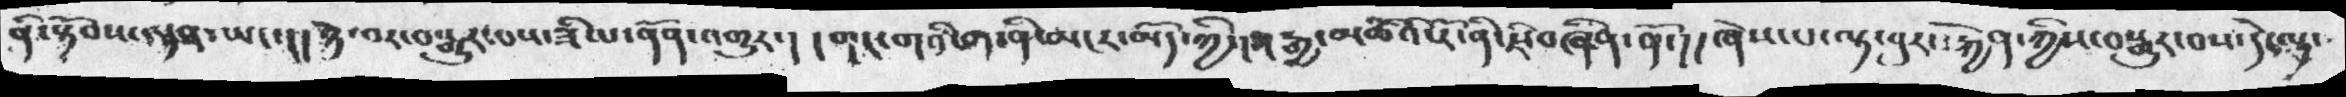ནི་སྟོབས་སྟན་ཡང་།། ཉེ་བར་བསྒྱུར་པས་ཟི་པ་ནོན་འགྱུར་།  ། གང་གཅིག་ནི་མངར་མོད་ཀྱི་། རྒྱ་མཚོའི་རོ་ནི་རྗེ་བཞིན་ནོ་།།  ཞེས་པ་ལྟ་བུར་རྐྱེན་ཀྱིས་བསྒྱུར་བས་དེ་ལྟ་
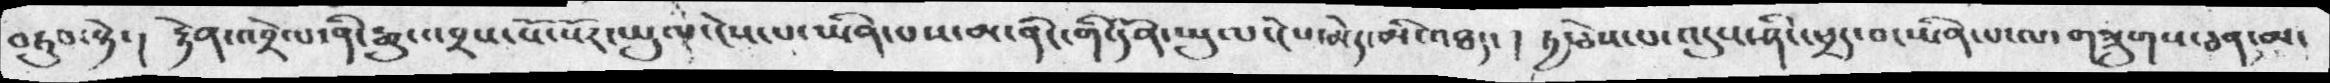བརུབ་སྟེ་། རྟེན་྄འབྲེལ་ནི་རྒྱུ་འབྲས་སོ་སོར་ཡུལ་ངེས་པ་ཡིན་པས་མ་ནིང་གི་དོན་ཡུལ་ངེས་མེད་མི་འཐད་། ཏྱ་ཅེས་པ་འདུས་ཤིང་ཕྲད་པ་ཡིན་པ་ལ་གཟུགས་ཅན་མ་
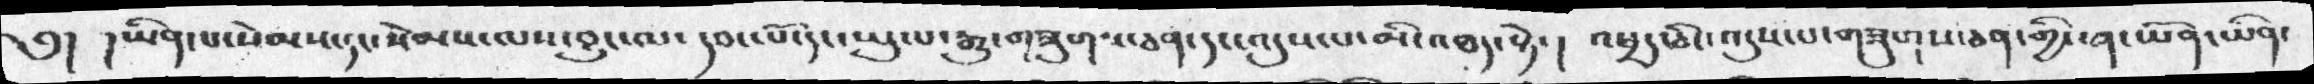༄༅། །ཡིན་པ་སེམས་དང་སེམས་ལས་བྱུང་ལ་དབང་པོ་དང་ཡུལ་རྒྱུ་གཟུགས་ཅན་དང་འདུས་པ་མི་འཐད་སྟེ་། འཕྲད་ཅིང་འདུས་པ་གཟུགས་ཅན་གྱི་ན་ཡོན་ཡིན་
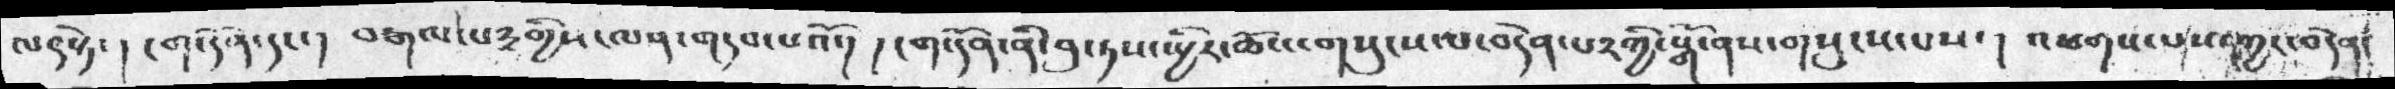ལན་སྟེ་། ངག་དོན་དང་། བརྒལ་པ༣་གྱིས་ལན་གདབ་པའོ་། །ངག་དོན་ནི་བུ་ཏས་སྤྱིར་ཆོས་གསུངས་པ་བདེན་པར་གྱི་སྒོ་ནས་གསུངས་པས་། འཕགས་པས་ཀྱང་བདེན་
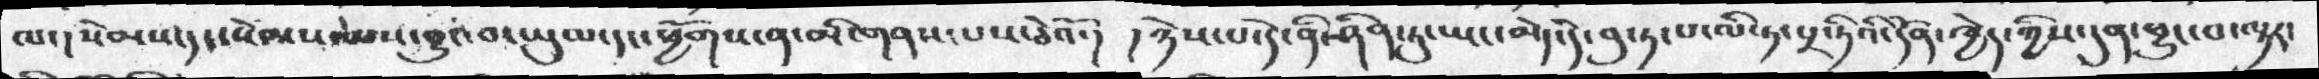ལ་། སེམས་དང་སེམས་ལས་བྱུང་བ་ཡུམ་དང་ཕྱོགས་ན་མི་གནས་པས་ཅེའོ་། །ཉེས་པ་དེ་ནི་ཤིན་ཏུ་ཡང་མེད་དེ་བུ་ཏ་པ་ལི་ཏ་པྲ་ཏིའི་དོན་ཁྱེད་ཀྱིས་དུན་ཕྱུང་བ་ལྟར་
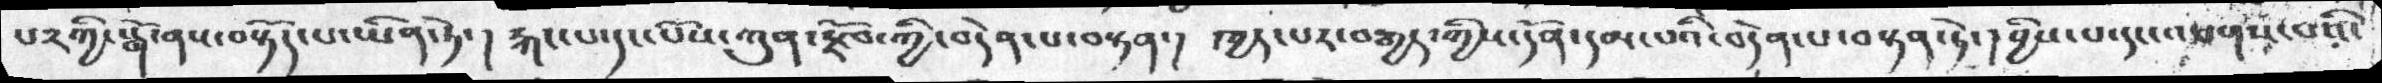པ༢ཀྱི་སྒོ་ནས་བསྟོད་པ་ཡིན་ཏེ་། རྐང་པ་དང་པོས་ཀུན་རྫོབ་ཀྱི་བདེན་པ་བསྟན་། ཁྱད་པར་བརྒྱད་གྱིས་དོན་དམ་པའི་བདེན་པ་བསྟན་ཏེ་། བྱིས་པ་དང་འཕགས་པའི་
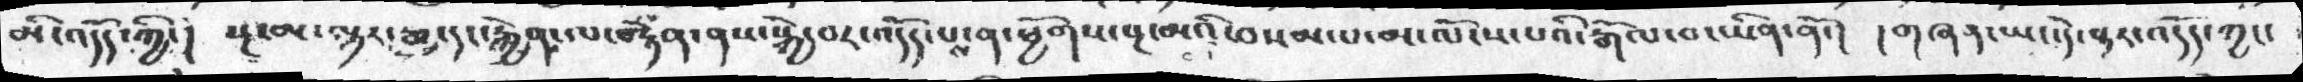མི་འདོད་ཀྱི་།  སྔ་མ་ལྟར་རྒྱུ་དང་རྐྱེན་ལ་བརྟེན་ནས་སྐྱེ་བར་འདོད་པས་ན་ཕྱོགས་སྔ་མའི་བསམ་པ་མ་ལོངས་པའི་རྒོལ་བ་ཡིན་ནི་།  ། གཞན་ཡང་དེ་ལྟར་འདོད་ཀྱང་
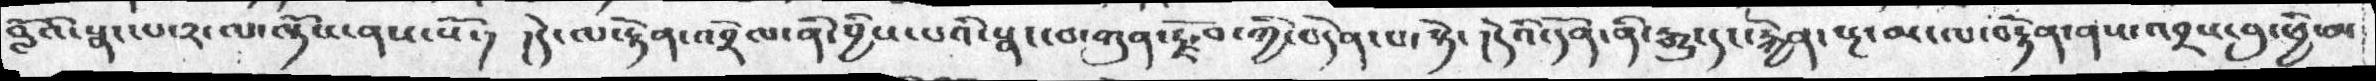བློའི་སྣང་པ་༢་ལ་ལྟོས་ནས་སོ་། དེར་ལ་རྟེན་འབྲེལ་ནི་བྱིས་པའི་སྣང་བ་ཀུན་རྫོབ་ཀྱི་བདེན་པ་སྟེ། དེའི་དོན་ནི་རྒྱུ་དང་རྐྱེན་སྔ་མ་ལ་བརྟེན་ནས་འབྲས་བུ་ཕྱི་མ་
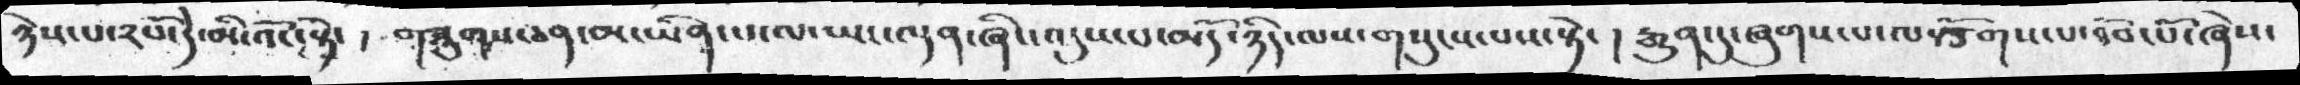ཉེས་པ་༢པོ་དེ་མི་འོང་སྟེ། གཟུགས་ཅན་མ་ཡིན་པ་ལ་ཡང་ལྡན་ཞིང་འདུས་པ་མདོ་ཉིད་ལས་གསུངས་པས་སྟེ་། རྒྱུན་དུ་ཞུགས་པ་ལ་སྩོགས་པ་ཐོབ་པོ་ཞེས་
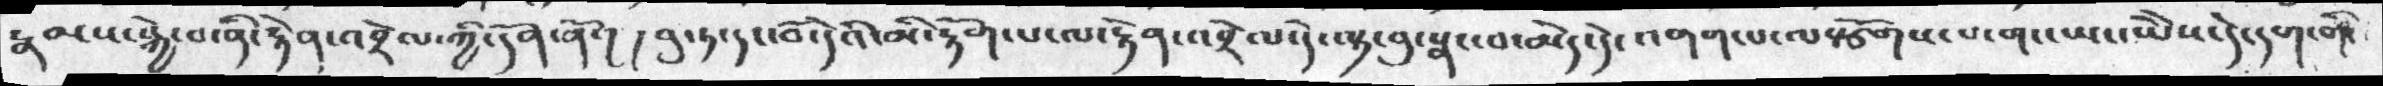རྣམས་སྐྱེ་བ་ནི་རྟེན་འབྲེལ་ཀྱི་དོན་ནོ་། དབུ་ཏ་དང་བོ་དེའི་མི་རྟོག་པ་ལ་རྟེན་འབྲེལ་དེ་ལྟ་བུ་སྣང་བ་མེད་དེ་འགག་པ་ལ་སྩོགས་པ་གང་ཡང་ཡེེས་དེ་དག་གི་
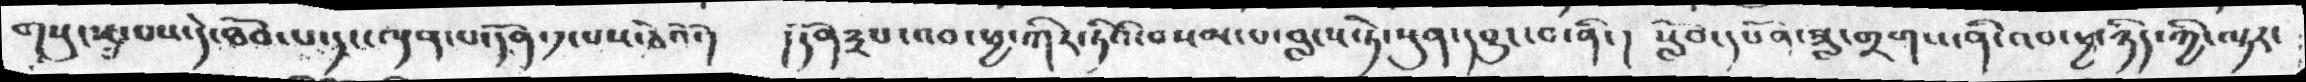གསུངས་པས་དེ་ཐོབ་པ་དང་ལྡན་པ་དོན་༡་པས་ཅེའོ་།  །དོན༣པ་འབ་ཕྱ་ཀིར་ཏིའི་བསམ་པ་བླངས་ཏེ་སུན་དབྱུང་བ་ནི་།  སློབ་དཔོན་ཟླ་གྲགས་ནི་འབ་ཕྱ་ཉིད་ཀྱི་ལྟར་
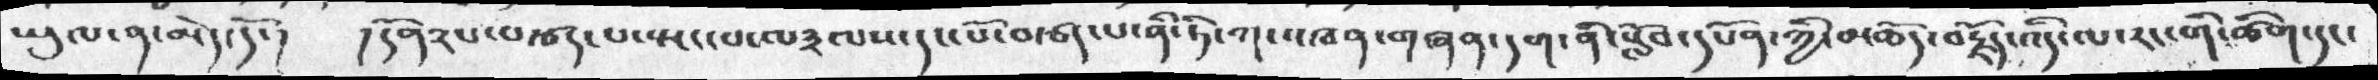ཡུལ་ན་མེད་དོ་།  །དོན༢པ་བརྩད་པ་སྤང་པ་ལ༣ལས་དངཔོ་བརྩད་པ་ནི་ཏི་ཀ་འཁན་གཞན་དག་ནི་སློབ་དཔོན་ཀྱི་མཆོད་བརྗོད་འདི་ལ་རང་གི་ཚིག་དང་
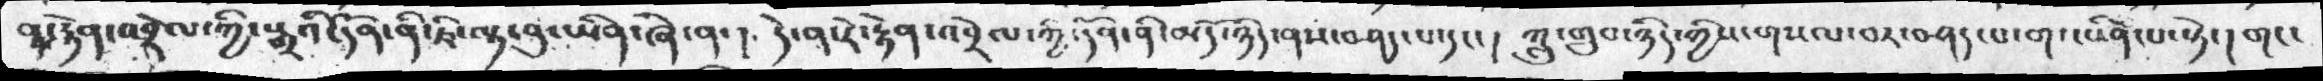ལྷ་རྟེན་འབྲེལ་ཀྱི་སྒྲའི་དོན་ནི་ཇི་ལྟ་བུ་ཡིན་ཞེ་ན་།  དེ་ན་རེ་རྟེན་འབྲེལ་ཀྱི་དོན་ནི་མདོ་ཉིད་ནས་བཤད་པ་དང་། ཀླུ་གྲུབ་ཉིད་ཀྱིས་གསལ་བར་བཤད་པ་གང་ཡིན་པ་སྟེ་།  གང་
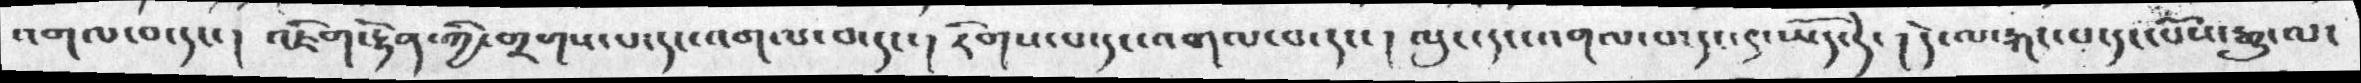འགལ་བ་དང་། འཇིག་རྟེན་གྱི་གྲགས་པ་དང་འགལ་བ་དང་། རིགས་པ་དང་འགལ་བ་དང་། ལུང་དང་འགལ་བ་དང་དུ་ཡོད་དེ་། དེ་ལ་རྐང་པ་དང་པོས་སྒྱུ་ལ་
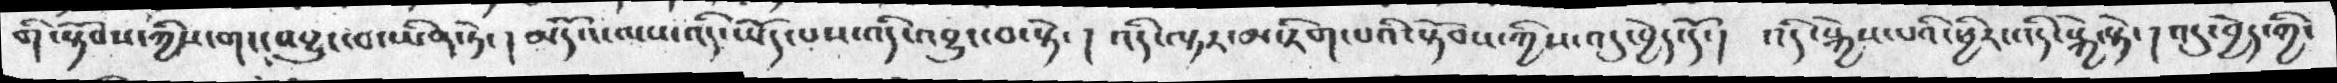གི་སྟོབས་ཀྱིས་གང་འབྱུང་བ་ཡིན་ཏེ་། མདོའི་ལས་འདི་ཡོདཔས་འདི་འབྱུང་བ་སྟེ་། འདི་ལྟར་མ་རིག་པའི་སྟོབས་ཀྱིས་འདུ་བྱེད་དོ་། འདི་སྐྱེས་པའི་ཕྱིར་འདི་སྐྱེ་སྟེ་། འདུ་བྱེད་གྱི་
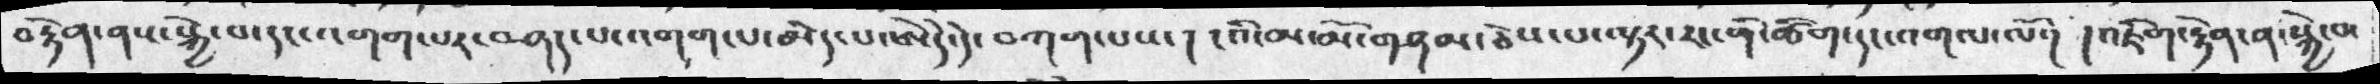བརྟེན་ནས་སྐྱེ་བ་དང་འགག་པར་བཤད་པ་འགག་པ་མེད་པ་ཨེད་དེ། བཀག་པས། ངའི་མ་མོ་གཤམ་ཅེས་པ་ལྟར་རང་གི་ཚིག་དང་འགལ་ལོ་། འཇིག་རྟེན་ན་སྐྱེ་བ་
